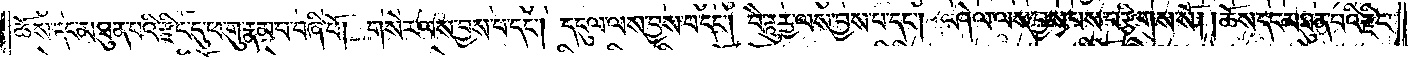ཆོས་དང་མཐུན་པའི་རྫིང་དུ་ཕ་གུ་རྣམ་པ་བཞི་པོ། གསེར་ལས་བྱས་པ་དང༌། དངུལ་ལས་བྱས་པ་དང༌། བཻ་ཌཱུརྱ་ལས་བྱས་པ་དང༌། ཤེལ་ལས་བྱས་པས་བརྩིགས་སོ། །ཆོས་དང་མཐུན་པའི་རྫིང་
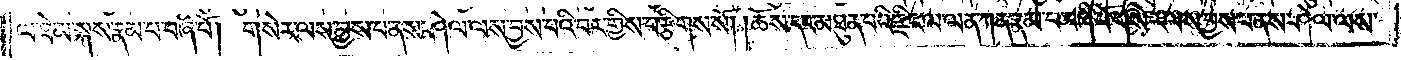ལ་ཐེམ་སྐས་རྣམ་པ་བཞི་པོ། གསེར་ལས་བྱས་པ་ནས་ཤེལ་ལས་བྱས་པའི་བར་གྱིས་བརྩིགས་སོ། །ཆོས་དང་མཐུན་པའི་རྫིང་ལ་ལན་ཀན་རྣམ་པ་བཞི་པོ་གསེར་ལས་བྱས་པ་ནས་ཤེལ་ལས་
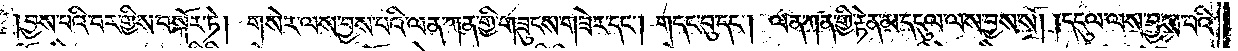བྱས་པའི་བར་གྱིས་བསྐོར་ཏེ། གསེར་ལས་བྱས་པའི་ལན་ཀན་གྱི་གཟུངས་གཟེར་དང༌། གདང་བུ་དང༌། ལན་ཀན་གྱི་རྟེན་མ་དངུལ་ལས་བྱས་སོ། །དངུལ་ལས་བྱས་པའི་
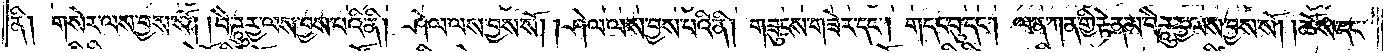ནི། གསེར་ལས་བྱས་སོ། །བཻ་ཌཱུརྱ་ལས་བྱས་པའི་ནི། ཤེལ་ལས་བྱས་སོ། །ཤེལ་ལས་བྱས་པའི་ནི། གཟུངས་གཟེར་དང༌། གདང་བུ་དང༌། ལན་ཀན་གྱི་རྟེན་མ་བཻ་ཌཱུརྱ་ལས་བྱས་སོ། །ཆོས་དང་
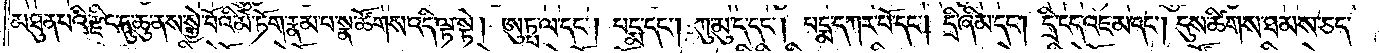མཐུན་པའི་རྫིང་དུ་ཆུ་ནས་སྐྱེ་བོའི་མེ་ཏོག་རྣམ་པ་སྣ་ཚོགས་འདི་ལྟ་སྟེ། ཨུཏྤ་ལ་དང༌། པདྨ་དང༌། ཀུ་མུ་ད་དང༌། པདྨ་དཀར་པོ་དང༌། དྲི་ཞིམ་དང༌། དྲི་ངད་འཇམ་དང༌། དུས་ཚིགས་ཐམས་ཅད་
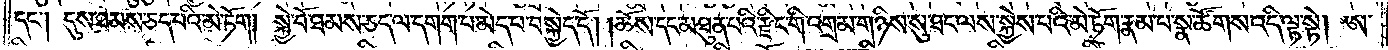དང༌། དུས་ཐམས་ཅད་པའི་མེ་ཏོག། སྐྱེ་བོ་ཐམས་ཅད་ལ་དགག་པ་མེད་པ་བསྐྱེད་དོ། །ཆོས་དང་མཐུན་པའི་རྫིང་གི་འགྲམ་གཉིས་སུ་ཐང་ལས་སྐྱེས་པའི་མེ་ཏོག་རྣམ་པ་སྣ་ཚོགས་འདི་ལྟ་སྟེ། ཨ་
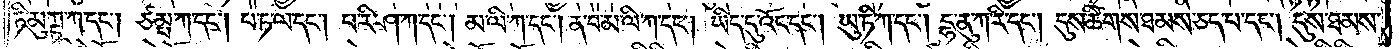ཏི་མུཀྟ་ཀ་དང༌། ཙམྤ་ཀ་དང༌། པ་ཏ་ལ་དང༌། པ་རི་ཤ་ཀ་དང༌། མ་ལི་ཀ་དང༌། ན་བ་མ་ལི་ཀ་དང༌། ཡིད་དུ་འོང་དང༌། ཡུ་ཏི་ཀ་དང༌། དྷ་ནུ་ཀ་རི་དང༌། དུས་ཚིགས་ཐམས་ཅད་པ་དང༌། དུས་ཐམས་
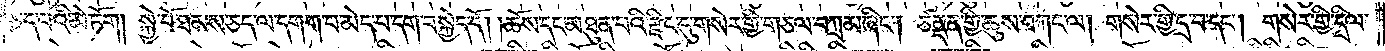ཅད་པའི་མེ་ཏོག། སྐྱེ་བོ་ཐམས་ཅད་ལ་དགག་པ་མེད་པ་དག་བསྐྱེད་དོ། །ཆོས་དང་མཐུན་པའི་རྫིང་དུ་གསེར་གྱི་གཅལ་བཀྲམ་ཞིང༌། ཙནྡན་གྱི་ཆུས་བཀང་ལ། གསེར་གྱི་དྲ་བ་དང༌། གསེར་གྱི་དྲིལ་
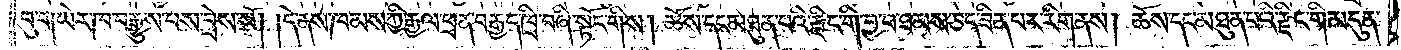བུ་གཡེར་ཁ་བརྒྱུས་པས་བྲེས་སོ། །དེ་ནས་ཁམས་ཀྱི་རྒྱལ་ཕྲན་བརྒྱད་ཁྲི་བཞི་སྟོང་གིས། ཆོས་དང་མཐུན་པའི་རྫིང་གི་བྱ་བ་ཐམས་ཅད་ཟིན་པར་རིག་ནས། ཆོས་དང་མཐུན་པའི་རྫིང་གི་མདུན་
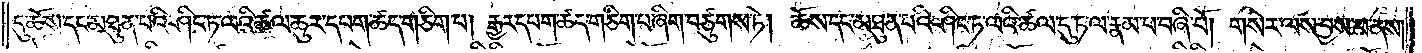དུ་ཆོས་དང་མཐུན་པའི་ཤིང་ཏ་ལའི་ཚལ་ཆུར་དཔག་ཚད་གཅིག་པ། རྒྱར་དཔག་ཚད་གཅིག་ཞིག་བཙུགས་ཏེ། ཆོས་དང་མཐུན་པའི་ཤིང་ཏ་ལའི་ཚལ་དུ་ཏ་ལ་རྣམ་པ་བཞི་པོ། གསེར་ལས་བྱས་པ་ནས།
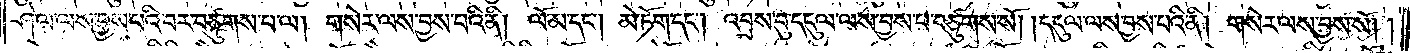ཤེལ་ལས་བྱས་པའི་བར་བཙུགས་པ་ལ། གསེར་ལས་བྱས་པའི་ནི། ལོ་མ་དང༌། མེ་ཏོག་དང༌། འབྲས་བུ་དངུལ་ལས་བྱས་པ་བཙུགས་སོ། །དངུལ་ལས་བྱས་པའི་ནི། གསེར་ལས་བྱས་སོ། །
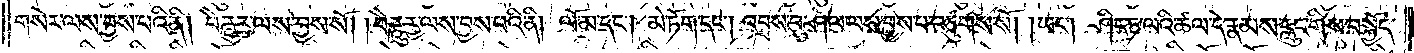གསེར་ལས་བྱས་པའི་ནི། བཻ་ཌཱུརྱ་ལས་བྱས་སོ། །བཻ་ཌཱུརྱ་ལས་བྱས་པའི་ནི། ལོ་མ་དང༌། མེ་ཏོག་དང༌། འབྲས་བུ་ཤེལ་ལས་བྱས་པ་བཙུགས་སོ། །ཡང༌། ཤིང་ཏ་ལའི་ཚལ་དེ་རྣམས་རླུང་གིས་བསྐྱོད་
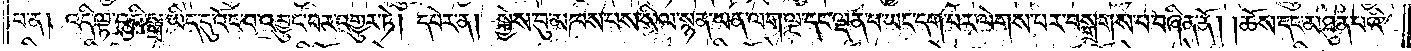པ་ན། འདི་ལྟ་བུའི་སྒྲ་ཡིད་དུ་འོང་བ་འབྱུང་བར་འགྱུར་ཏེ། དཔེར་ན། སྐྱེས་བུ་མཁས་པས་སིལ་སྙན་ཡན་ལག་ལྔ་དང་ལྡན་པ་ཡང་དག་པར་ལེགས་པར་བསྒྲགས་པ་བཞིན་ནོ། །ཆོས་དང་མཐུན་པའི་
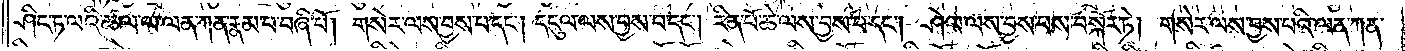ཤིང་ཏ་ལའི་ཚལ་ལ་ལན་ཀན་རྣམ་པ་བཞི་པོ། གསེར་ལས་བྱས་པ་དང༌། དངུལ་ལས་བྱས་པ་དང༌། རིན་པོ་ཆེ་ལས་བྱས་པ་དང༌། ཤེལ་ལས་བྱས་པས་བསྐོར་ཏེ། གསེར་ལས་བྱས་པའི་ལན་ཀན་
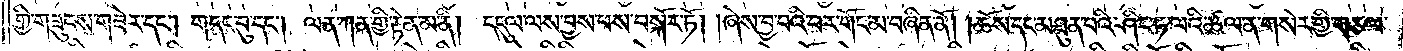གྱི་གཟུངས་གཟེར་དང༌། གདང་བུ་དང༌། ལན་ཀན་གྱི་རྟེན་མ་ནི། དངུལ་ལས་བྱས་པ་བསྐོར་ཏོ། །ཞེས་བྱ་བའི་བར་གོང་མ་བཞིན་ནོ། །ཆོས་དང་མཐུན་པའི་ཤིང་ཏ་ལའི་ཚལ་ན་གསེར་གྱི་གཅལ་
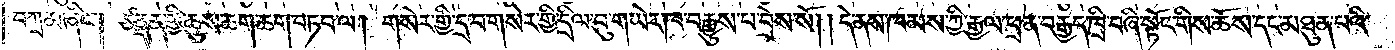བཀྲམ་ཞིང༌། ཙནྡན་གྱི་ཆུས་ཆག་ཆག་བཏབ་ལ། གསེར་གྱི་དྲ་བ་གསེར་གྱི་དྲིལ་བུ་གཡེར་ཁ་བརྒྱུས་པ་བྲེས་སོ། །དེ་ནས་ཁམས་ཀྱི་རྒྱལ་ཕྲན་བརྒྱད་ཁྲི་བཞི་སྟོང་གིས་ཆོས་དང་མཐུན་པའི་
